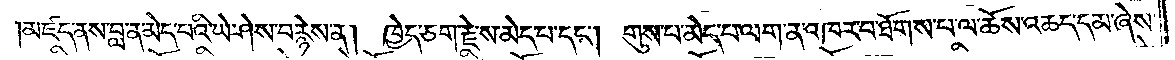།མཛད་ནས་བླ་ན་མེད་པའི་ཡེ་ཤེས་བརྙེས་ན། ཁྱེད་ཅག་རྗེ་ས་མེད་པ་དང༌། གུས་པ་མེད་པ་ལག་ན་འཁར་བ་ཐོགས་པ་ལ་ཆོས་འཆད་དམ་ཞེས་
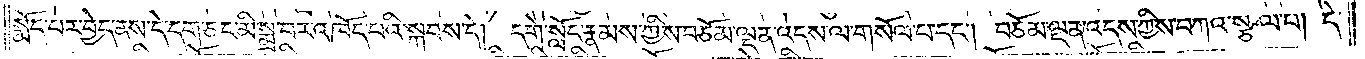སྨོད་པར་བྱེད་ནས་དེ་དག་ཅང་མི་སྨྲ་བར་འཁོད་པའི་སྐབས་དེ། དགེ་སློང་རྣམས་ཀྱིས་བཅོམ་ལྡན་འདས་ལ་གསོལ་པ་དང༌། བཅོམ་ལྡན་འདས་ཀྱིས་བཀའ་སྩལ་པ། དེ་
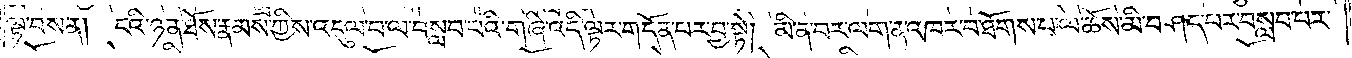ལྟ་བས་ན། ངའི་ཉན་ཐོས་རྣམས་ཀྱིས་འདུལ་བ་ལ་བསླབ་པའི་གཞི་འདི་ལྟར་གདོན་པར་བྱ་སྟེ། མི་ན་བར་ལག་ན་འཁར་བ་ཐོགས་པ་ལ་ཆོས་མི་བཤད་པར་བསླབ་པར་
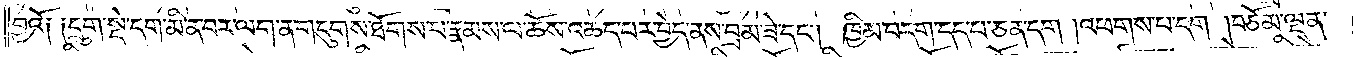བྱའོ༑ ༑དྲུག་སྡེ་དག་མི་ན་བར་ལག་ན་གདུགས་ཐོགས་པ་རྣམས་ལ་ཆོས་འཆད་པར་བྱེད་ནས་བྲམ་ཟེ་དང༌། ཁྱིམ་བདག་དད་པ་ཅན་དག །འཕགས་པ་དག །བཅོམ་ལྡན་
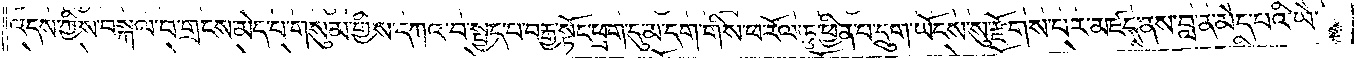འདས་ཀྱིས་བསྐལ་པ་གྲངས་མེད་པ་གསུམ་གྱིས་དཀའ་བ་སྤྱད་པ་བརྒྱ་སྟོང་ཕྲག་དུ་མ་དག་གིས་ཕ་རོལ་ཏུ་ཕྱིན་པ་དྲུག་ཡོངས་སུ་རྫོགས་པར་མཛད་ནས་བླ་ན་མེད་པའི་ཡེ་
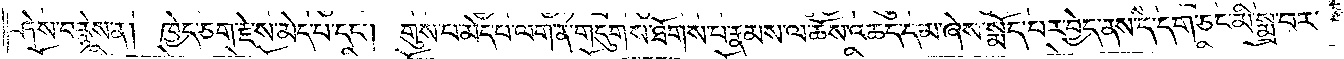ཤེས་བརྙེས་ན། ཁྱེད་ཅག་རྗེ་ས་མེད་པ་དང༌། གུས་པ་མེད་པ་ལག་ན་གདུགས་ཐོགས་པ་རྣམས་ལ་ཆོས་འཆད་དམ་ཞེས་སྨོད་པར་བྱེད་ནས་དེ་དག་ཅང་མི་སྨྲ་བར་
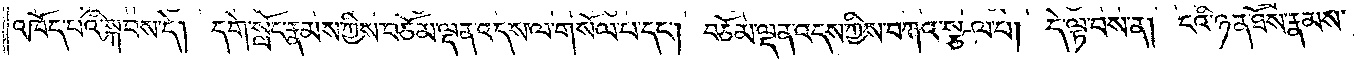འཁོད་པའི་སྐབས་དེ། དགེ་སློང་རྣམས་ཀྱིས་བཅོམ་ལྡན་འདས་ལ་གསོལ་པ་དང༌། བཅོམ་ལྡན་འདས་ཀྱིས་བཀའ་སྩལ་པ། དེ་ལྟ་བས་ན། ངའི་ཉན་ཐོས་རྣམས་
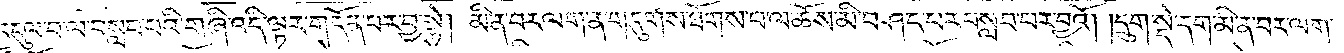འདུལ་བ་ལ་བསླབ་པའི་གཞི་འདི་ལྟར་གདོན་པར་བྱ་སྟེ། མི་ན་བར་ལག་ན་གདུགས་ཐོགས་པ་ལ་ཆོས་མི་བཤད་པར་བསླབ་པར་བྱའོ། །དྲུག་སྡེ་དག་མི་ན་བར་ལག་
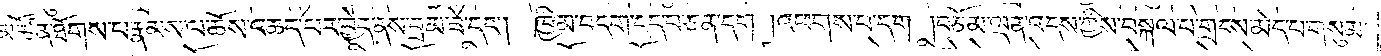མཚོན་ཐོགས་པ་རྣམས་ལ་ཆོས་འཆད་པར་བྱེད་ནས་བྲམ་ཟེ་དང༌། ཁྱིམ་བདག་དད་པ་ཅན་དག །འཕགས་པ་དག །བཅོམ་ལྡན་འདས་ཀྱིས་བསྐལ་པ་གྲངས་མེད་པ་གསུམ་
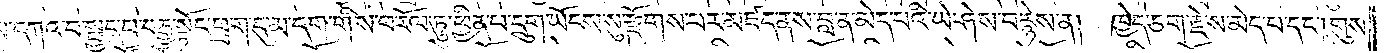དཀའ་བ་སྤྱད་པ་བརྒྱ་སྟོང་ཕྲག་དུ་མ་དག་གིས་ཕ་རོལ་ཏུ་ཕྱིན་པ་དྲུག་ཡོངས་སུ་རྫོགས་པར་མཛད་ནས་བླ་ན་མེད་པའི་ཡེ་ཤེས་བརྙེས་ན། ཁྱེད་ཅག་རྗེ་ས་མེད་པ་དང༌། གུས་
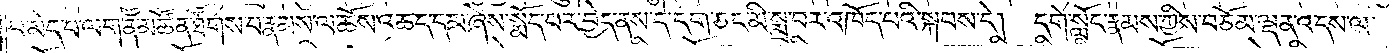པ་མེད་པ་ལག་ན་མཚོན་ཐོགས་པ་རྣམས་ལ་ཆོས་འཆད་དམ་ཞེས་སྨོད་པར་བྱེད་ནས་དེ་དག་ཅང་མི་སྨྲ་བར་འཁོད་པའི་སྐབས་དེ། དགེ་སློང་རྣམས་ཀྱིས་བཅོམ་ལྡན་འདས་ལ་
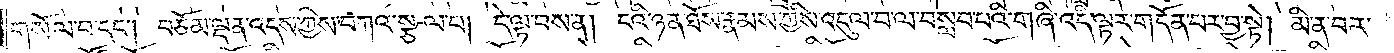གསོལ་པ་དང༌། བཅོམ་ལྡན་འདས་ཀྱིས་བཀའ་སྩལ་པ། དེ་ལྟ་བས་ན། ངའི་ཉན་ཐོས་རྣམས་ཀྱིས་འདུལ་བ་ལ་བསླབ་པའི་གཞི་འདི་ལྟར་གདོན་པར་བྱ་སྟེ། མི་ན་བར་
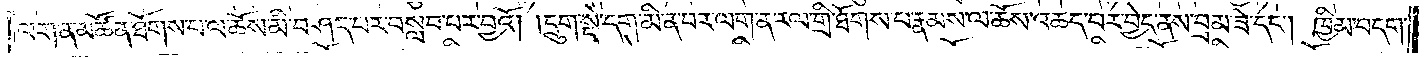ལག་ན་མཚོན་ཐོགས་པ་ལ་ཆོས་མི་བཤད་པར་བསླབ་པར་བྱའོ། །དྲུག་སྡེ་དག་མི་ན་བར་ལག་ན་རལ་གྲི་ཐོགས་པ་རྣམས་ལ་ཆོས་འཆད་པར་བྱེད་ནས་བྲམ་ཟེ་དང༌། ཁྱིམ་བདག་
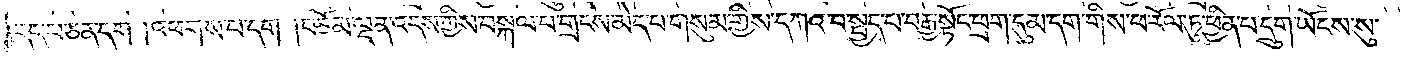དད་པ་ཅན་དག །འཕགས་པ་དག །བཅོམ་ལྡན་འདས་ཀྱིས་བསྐལ་པ་གྲངས་མེད་པ་གསུམ་གྱིས་དཀའ་བ་སྤྱད་པ་བརྒྱ་སྟོང་ཕྲག་དུ་མ་དག་གིས་ཕ་རོལ་ཏུ་ཕྱིན་པ་དྲུག་ཡོངས་སུ་
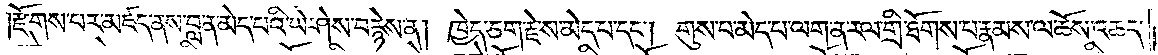རྫོགས་པར་མཛད་ནས་བླ་ན་མེད་པའི་ཡེ་ཤེས་བརྙེས་ན། ཁྱེད་ཅག་རྗེས་མེད་པ་དང༌། གུས་པ་མེད་པ་ལག་ན་རལ་གྲི་ཐོགས་པ་རྣམས་ལ་ཆོས་འཆད་
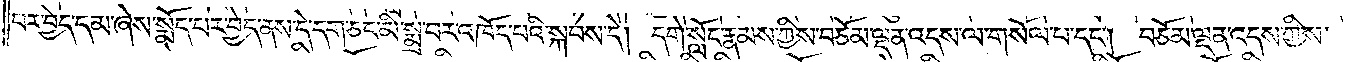པར་བྱེད་དམ་ཞེས་སྨོད་པར་བྱེད་ནས་དེ་དག་ཅང་མི་སྨྲ་བར་འཁོད་པའི་སྐབས་དེ། དགེ་སློང་རྣམས་ཀྱིས་བཅོམ་ལྡན་འདས་ལ་གསོལ་བ་དང༌། བཅོམ་ལྡན་འདས་ཀྱིས་
